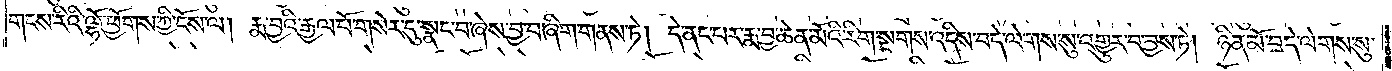གངས་རིའི་ལྷོ་ཕྱོགས་ཀྱི་ངོས་ལ། རྨ་བྱའི་རྒྱལ་པོ་གསེར་དུ་སྣང་བ་ཞེས་བྱ་བ་ཞིག་གནས་ཏེ། དེ་ནང་པར་རྨ་བྱ་ཆེན་མོའི་རིག་སྔགས་འདིས་བདེ་ལེགས་སུ་འགྱུར་བ་བྱས་ཏེ། ཉིན་མོ་བདེ་ལེགས་སུ་
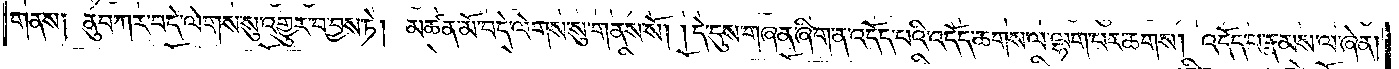གནས། ནུབ་ཀར་བདེ་ལེགས་སུ་འགྱུར་བ་བྱས་ཏེ། མཚན་མོ་བདེ་ལེགས་སུ་གནས་སོ། །དེ་དུས་གཞན་ཞིག་ན་འདོད་པའི་འདོད་ཆགས་ལ་ལྷག་པར་ཆགས། འདོད་པ་རྣམས་ལ་ཞེན།
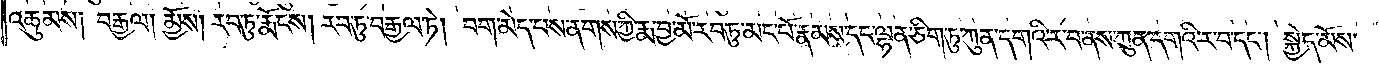འཆུམས། བརྒྱལ། མྱོས། རབ་ཏུ་རྨོངས། རབ་ཏུ་བརྒྱལ་ཏེ། བག་མེད་པས་ནགས་ཀྱི་རྨ་བྱ་མོ་རབ་ཏུ་མང་པོ་རྣམས་དང་ལྷན་ཅིག་ཏུ་ཀུན་དགའི་ར་བ་ནས་ཀུན་དགའི་ར་བ་དང༌། སྐྱེད་མོས་
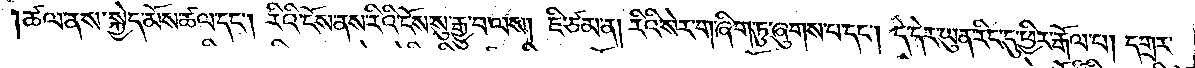།ཚལ་ནས་སྐྱེད་མོས་ཚལ་དང༌། རིའི་ངོས་ནས་རིའི་ངོས་སུ་རྒྱུ་བ་ལས། ཇི་ཙམ་ན། རིའི་སེར་ག་ཞིག་ཏུ་ཞུགས་པ་དང༌། དེ་དེར་ཡུན་རིང་དུ་ཕྱིར་རྒོལ་པ། དགྲར་
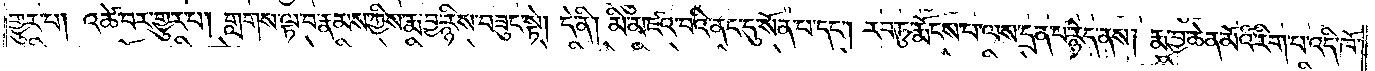གྱུར་པ། འཚེ་བར་གྱུར་པ། གླགས་ལྟ་བ་རྣམས་ཀྱིས་རྨ་བྱ་རྙིས་བཟུང་སྟེ། དེ་ནི། མི་མཛའ་བའི་ནང་དུ་སོན་པ་དང༌། རབ་ཏུ་རྨོངས་པ་ལས་དྲན་པ་རྙེད་ནས། རྨ་བྱ་ཆེན་མོའི་རིག་པ་འདི་ཁོ་
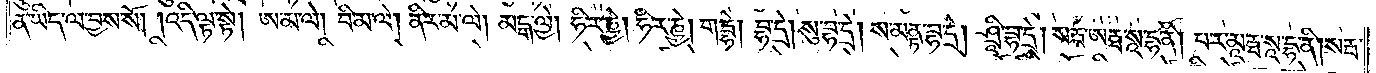ན་ཡིད་ལ་བྱས་སོ། །འདི་ལྟ་སྟེ། ཨ་མ་ལེ། བི་མ་ལེ། ནིར་མ་ལེ། མངྒ་ལྱེ། ཧི་ར་ཎྱེ། ཧི་ར་ཎྱེ། གརྦྷེ། བྷ་དྲེ། སུ་བྷ་དྲེ། ས་མནྟ་བྷ་དྲེ། ཤྲཱི་བྷ་དྲེ། སརྦ་ཨརྠ་སཱ་དྷ་ནི། པ་ར་མཱ་རྠ་སཱ་དྷ་ནི། སརྦ་
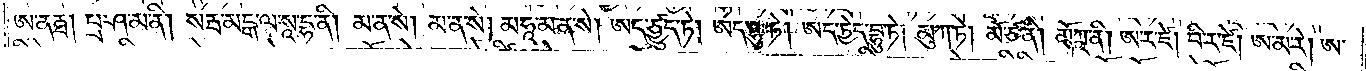ཨ་ནརྠ། པྲ་ཤ་མ་ནི། སརྦ་མངྒ་ལ་སཱ་དྷ་ནི། མ་ན་སེ། མ་ན་སེ། མཧཱ་མ་ན་སེ། ཨད་ཙྱུད་ཏེ། ཨད་བྷུ་ཏེ། ཨད་ཏྱེད་བྷུ་ཏེ། མུཀ་ཏེ། མོ་ཙ་ནི། མོཀྵ་ནི། ཨ་ར་ཛེ། བི་ར་ཛེ། ཨ་མ་རེ། ཨ་
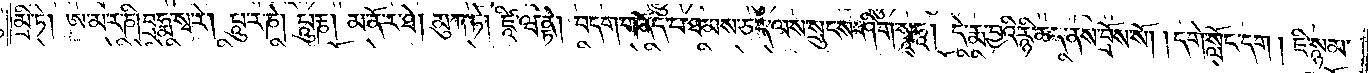མྲི་ཏེ། ཨ་མ་ར་ཎི། བྲཧྨ་སྭ་རེ། པཱུ་ར་ཎེ། པཱུརྞ། མ་ནོ་ར་ཐེ། མུཀ་ཏེ། ཛཱི་ཝནྟེ། བདག་གནོད་པ་ཐམས་ཅད་ལས་སྲུངས་ཤིག་སྭཱཧཱ། དེ་རྨ་བྱའི་རྙི་ཆད་ནས་བྲོས་སོ། །དགེ་སློང་དག། ཇི་སྙམ་
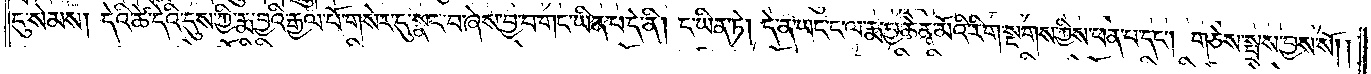དུ་སེམས། དེའི་ཚེ་དེའི་དུས་ཀྱི་རྨ་བྱའི་རྒྱལ་པོ་གསེར་དུ་སྣང་བ་ཞེས་བྱ་བ་གང་ཡིན་པ་དེ་ནི། ང་ཡིན་ཏེ། དེ་ན་ཡང་ང་ལ་རྨ་བྱ་ཆེན་མོའི་རིགས་སྔགས་ཀྱིས་ཕན་པ་དང༌། གཅེས་སྤྲས་བྱས་སོ། །
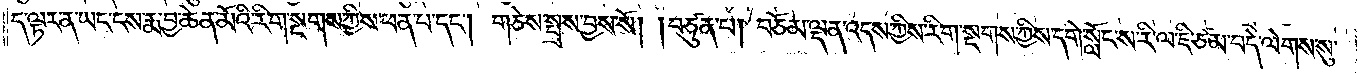ད་ལྟར་ན་ཡང་ངས་རྨ་བྱ་ཆེན་མོའི་རིག་སྔགས་ཀྱིས་ཕན་པ་དང༌། གཅེས་སྤྲས་བྱས་སོ། །བཙུན་པ། བཅོམ་ལྡན་འདས་ཀྱིས་རིག་སྔགས་ཀྱིས་དགེ་སློང་ས་རི་ལ་ཇི་ཙམ་པ་བདེ་ལེགས་སུ་
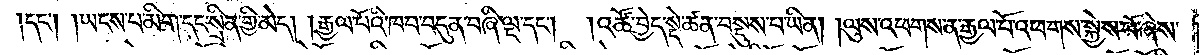དང༌། །ཡངས་པ་མིག་དང་སྲིན་གྱི་མེད། །རྒྱལ་པོའི་ཁབ་བདུན་བཞི་ལྔ་དང༌། །འཚོ་བྱེད་སྡེ་ཚན་བསྡུས་པ་ཡིན། །ལུས་འཕགས་ན་རྒྱལ་བོ་འཕགས་སྐྱེས་པོ་ཞེས་
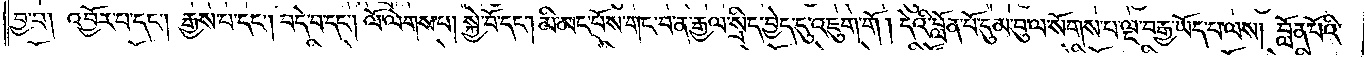བྱ་བ། འབྱོར་པ་དང༌། རྒྱས་པ་དང༌། བདེ་བ་དང༌། ལོ་ལེགས་པ། སྐྱེ་བོ་དང༌། མི་མང་པོས་གང་བ་ན་རྒྱལ་སྲིད་བྱེད་དུ་འཇུག་གོ །དེའི་བློན་པོ་དུམ་བུ་ལ་སོགས་པ་ལྔ་བརྒྱ་ཡོད་པ་ལས། བློན་པོའི་
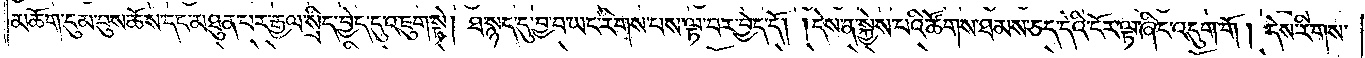མཆོག་དུམ་བུས་ཆོས་དང་མཐུན་པར་རྒྱལ་སྲིད་བྱེད་དུ་འཇུག་སྟེ། ཐ་སྙད་དུ་བྱ་བ་ཡང་རིགས་པས་ལྟ་བར་བྱེད་དོ། །དེས་ན་སྐྱེས་པའི་ཚོགས་ཐམས་ཅད་དེའི་ངོར་ལྟ་ཞིང་འདུག་གོ །དེས་རིགས་
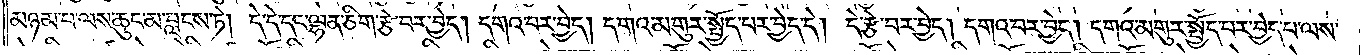མཉམ་པ་ལས་ཆུང་མ་བླངས་ཏེ། དེ་དེ་དང་ལྷན་ཅིག་རྩེ་བར་བྱེད། །དགའ་བར་བྱེད། དགའ་མགུར་སྤྱོད་པར་བྱེད་དེ། དེ་རྩེ་བར་བྱེད། དགའ་བར་བྱེད། དགའ་མགུར་སྤྱོད་པར་བྱེད་པ་ལས་
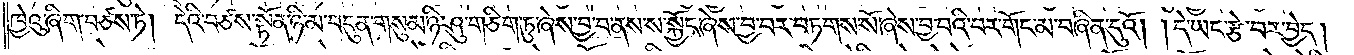ཁྱེའུ་ཞིག་བཙས་ཏེ། དེའི་བཙས་སྟོན་ཉི་མ་བདུན་གསུམ་ཉི་ཤུ་གཅིག་ཏུ་ཞེས་བྱ་བ་ནས་ས་སྐྱོང་ཞེས་བྱ་བར་བཏགས་སོ་ཞེས་བྱ་བའི་བར་གོང་མ་བཞིན་དུའོ། །དེ་ཡང་རྩེ་བར་བྱེད།
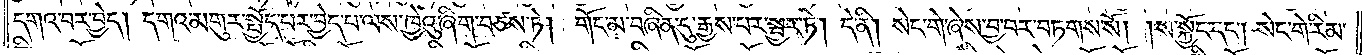དགའ་བར་བྱེད། དགའ་མགུར་སྤྱོད་པར་བྱེད་པ་ལས་ཁྱེའུ་ཞིག་བཙས་ཏེ། གོང་མ་བཞིན་དུ་རྒྱས་པར་སྦྱར་ཏེ། དེ་ནི། སེང་གེ་ཞེས་བྱ་བར་བཏགས་སོ། །ས་སྐྱོང་དང༌། སེང་གེ་རིམ་
